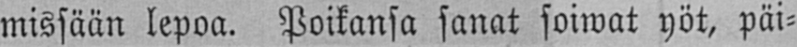missään lepoa. Poikansa sanat soiwat yöt, päi-
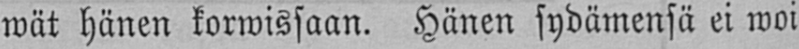wät hänen korwissaan. Hänen sydämensä ei woi
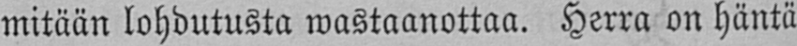mitään lohdutusta wastaanottaa. Herra on häntä
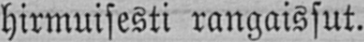hirmuisesti rangaissut.
